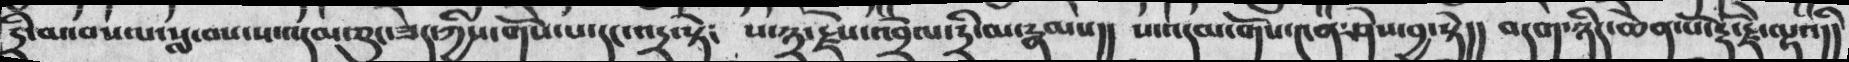དྲི་མ་བསལ་སླ་བས་ས་འདམ་ཅུང་ཟད་ཀྱིས་གོས་པ་དང་པདྲ་སྟེ༴  པ་༣་རྗེས་འབྲེལ་དྲི་མ་རྣམས།།  ས་འདམ་གོས་༤ན་ཤེས་བྱ་སྟེ།།  བདག་ཉིད་ཆེན་པོ་རྡོ་རྗེ་ལྷའི།།
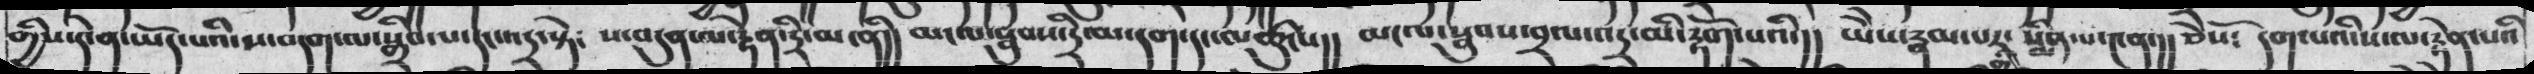གྱིས་དེ་ན་ཡོད་པའི་ས་བདག་ལ་སྒྲིབ་པ་དང་འདྲ་སྟེ༴  ས་བདུན་ལ་རྟེན་དྲི་མ་ནི།།  མངལ་སྦུབས་དྲི་མ་དག་དང་མཚུངས།།   མངལ་སྦུབས་བྲལ་འདྲ་མི་རྟོག་པའི།།  ཡེེས་རྣམ་པར་སྨིམ་པ་༤ན་།།  ཅེསོ༴  དག་པའི་ས་ལ་རྟེན་པའི
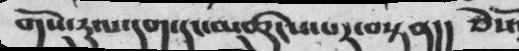གོས་རུལ་དག་དང་མཚུངས་པར་བསྟན།།  ཅེསོ།
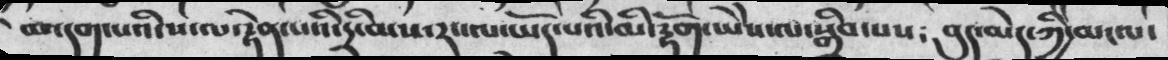མ་དག་པའི་ས་ལ་རྟེན་པའི་དྲི་མས་རང་ལ་ཡོད་པའི་མི་རྟོག་ཡེེས་ལ་སྒྲིབ་པས༴  བུད་མེད་ཀྱི་མངལ་
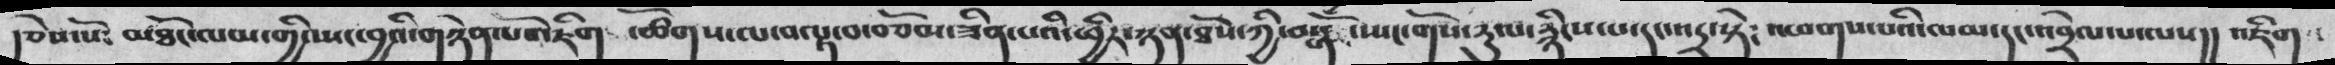།ཅེས་སོ༴  མཐོང་ལམ་གྱི་སྤང་བྱའི་གཉེན་པོ་འཇིག ་ཚོགས་ལ་བལྟ་བ་བཅོམ་ཟིན་པའི་ཕྱིར་ཉན་ཐོས་ཀྱི་བསྒོམ་སྤང་གོས་རུལ་རྙིངས་པ་དང་འདྲ་སྟེ༴  འཕགས་པའི་ལམ་དང་འབྲེལ་པ་ལས།།  འཇིག་
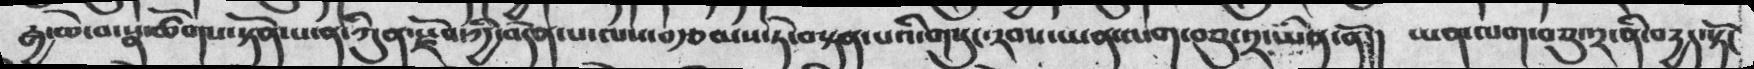རྒྱ་ཆེ་བ་སྣ་ཚོགས་སྟོན་པ་ན་ཀུན་རྫོབ་ཀྱི་བདེན་པ་ལས་བརྩམས་ཏེ་བསྟན་པའི་གསུང་རབས་ཡན་ལག་བཅུ་༢་ཡིན་ནོ།།  ཡན་ལག་བཅུ་༢་ནི་བརྱད་སྟོང
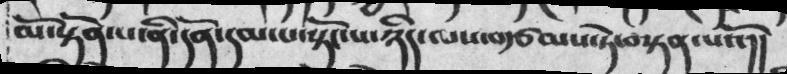མོ་སྟོན་པ་ནི་དོན་དམ་པ་སྟོང་པ་ཉིད་ལས་བརྩམས་ཏེ་བསྟན་པའོ།།
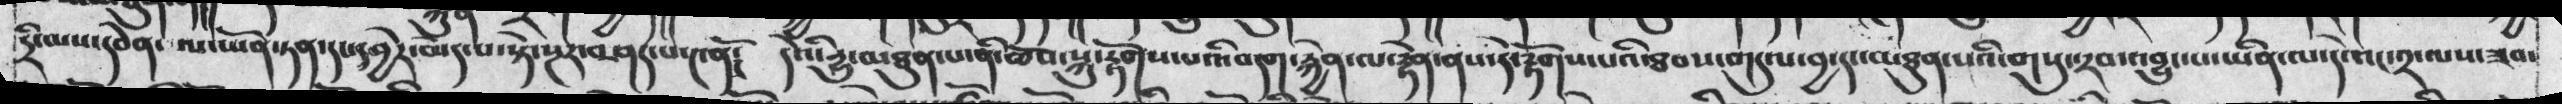དྲི་མས་དབེན་ལ་ཡོན་ཏན་དང་དབྱེར་མེད་པ་སྟེ་སྔར་བཤད་པ་༤ནོ༴   དེའི་རྱུ་མཐུན་པ་ནི་ཆོས་སྐུ་རྟོགས་པའི་བདག་རྐྱེན་རྟེན་ནས་དེ་རྟོགས་པའི་ཐབས་གདུལ་བྱ་དང་མཐུན་པའི་གསུངརབ་འབྱུང་པ་ཡིན་ལ་དེ་འང་༢་ལས་ཟབ་
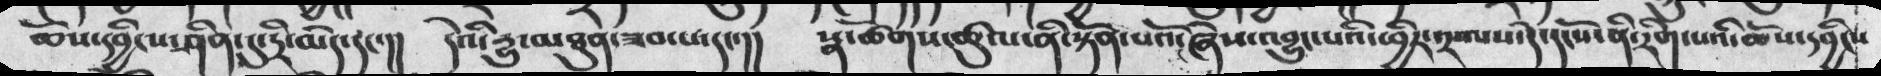ཆོས་དབྱིངས་ཤིན་དུ་དྲི་མེད་དང་།།  དེའི་རྱུ་མཐུན་ཟབ་པ་དང་།།  སྣ་ཚོགས་ཚུལ་ནི་སྟོན་པའོ་ཞེས་འབྱུང་པའོ་ཕྱིར་༢་ལས་དེ་དངོས་ནི་རིག་པའི་ཆོས་དབྱིངས
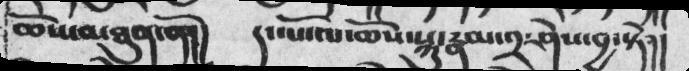ཆོས་མཐུན་ནོ།།  ད་པོ་ལ་ཆོས་སྐུ་རྣམ་༢་ཤེས་བྱ་སྟེ།།
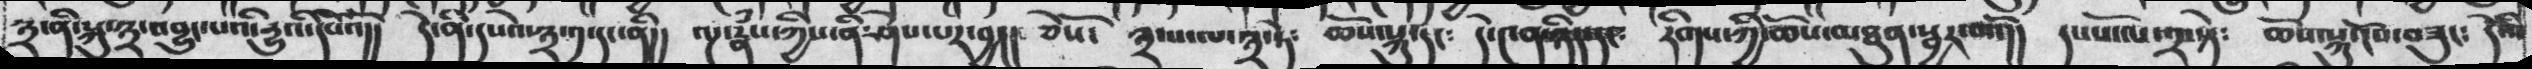སྒྲ་ནི་སྐུ་༣་འབྱུང་པའི་རྱུའི་དཔེའོ།།  དེ་ནི་དཔེའ་༣་༡་དང་ནི།།  ལྔ་རྣཾས་ཀྱིས་ནི་ཤེས་པར་བྱ།།  ཅེསོ་  ༣་པ་ལ་༣་ཏེ༴   ཆོས་སྐུ་དང༴  དེ་༤ན་ཉིད་དང༴  རིགས་ཀྱི་ཆོས་མཐུན་སྦྱར་བའོ།།  དང་པོ་ལ་༢་སྟེ༴  ཆོས་སྐུ་ངོས་བཟུང༴ དེའི་
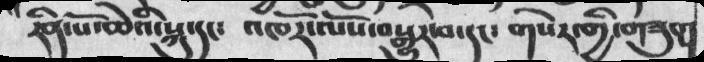རིན་པོ་ཆེའི་སྐུ་དང༴  འཁོར་ལོས་བསྒྱུར་བ་དང༴  གསེར་གྱི་གཟུང་།
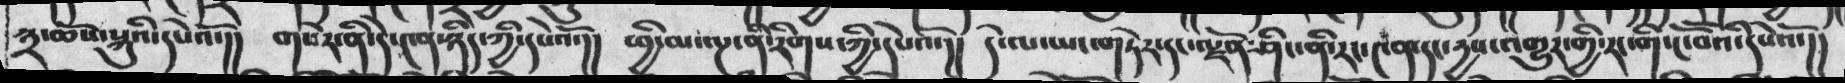སྒྲ་ཆོས་སྐུའི་དཔེའོ་།།  གསེར་ནི་དེ་༤ན་ཉིད་ཀྱི་དཔེའོ་།།  ཕྱི་མ་ལྔ་ནི་རིགས་ཀྱི་དཔེའོ་།།   དེ་ལ་ཡང་གཏེར་དང་ལྗོན་ཤིང་ནི་རང་༤ན་དང་དྱས་འགྱུར་གྱི་རང་གི་ངོ་་བཽའི་དཔེའོ་།།
